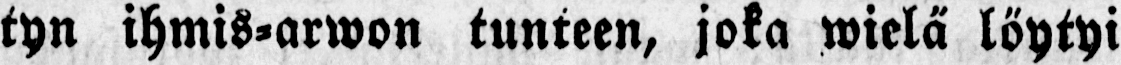tyn ihmis-arwon tunteen, joka wielä lő ytyi
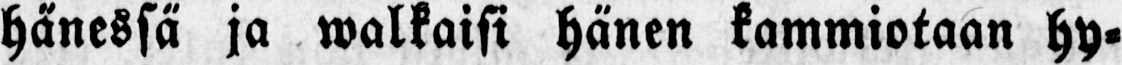hä nessä ja walkaisi hä nen kammiotaan hy-
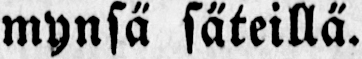mynsä säteillä .
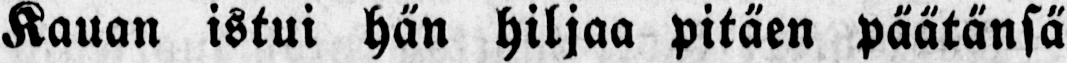Kauan istui hä n hiljaa pitä en päätä nsä
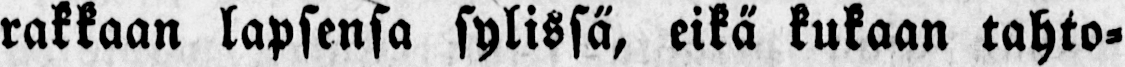rakkaan lapsensa sylissä , eikä kukaan tahto-
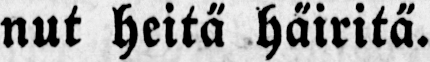nut heitä häiritä .
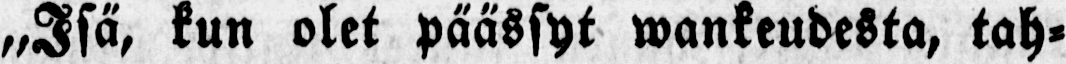„ Isä , kun olet pää ssyt wankeudesta, tah-
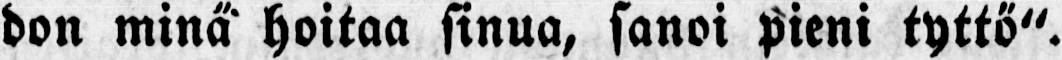don minä hoitaa sinua, sanoi pieni tyttő ".
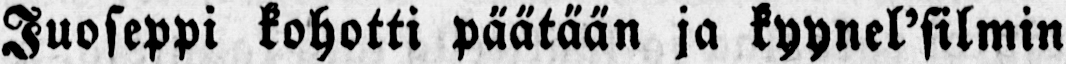Juoseppi kohotti päätää n ja kyynel’ silmin
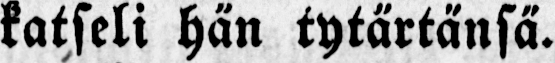katseli hä n tytärtänsä .
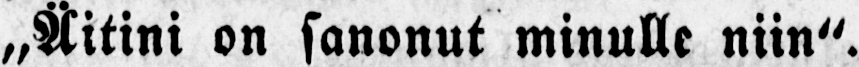„Äitini on sanonut minulle niin".
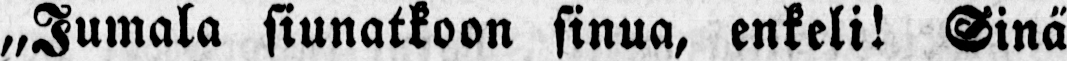„Jumala siunatkoon sinua, enkeli! Sinä
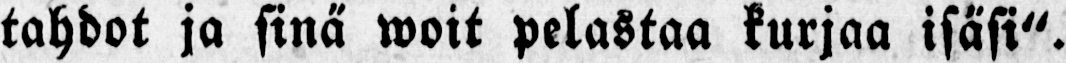tahdot ja sinä woit pelastaa kurjaa isä si".
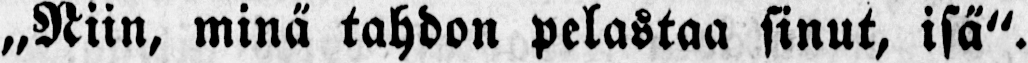„Niin, minä tahdon pelastaa sinut, isä ".
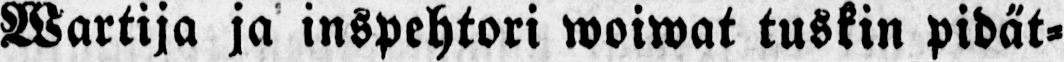Wartija ja inspehtori woiwat tuskin pidät-
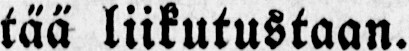tää liikutustaan.
